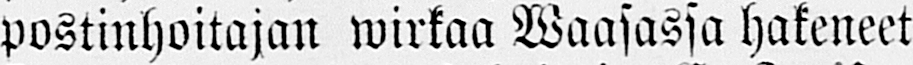postinhoitajan wirkaa Waasassa hakeneet
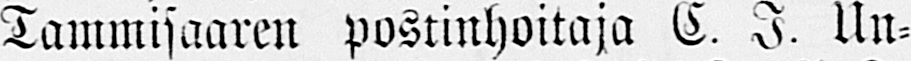Tammisaaren postinhoitaja C. J. Un-
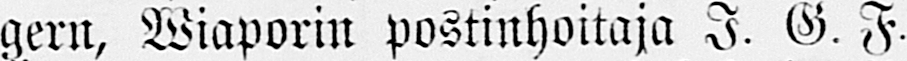gern, Wiaporin postinhoitaja I. G. F.
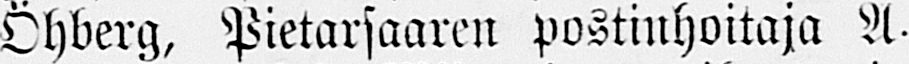Ohberg, Pietarsaaren postinhoitaja A.
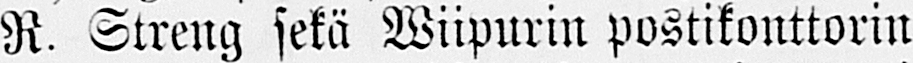R. Streng sekä Wiipurin postikonttorin
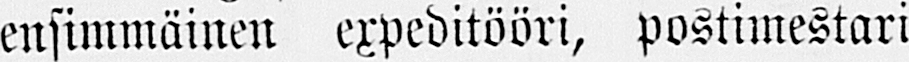ensimmäinen expeditööri, postimestari
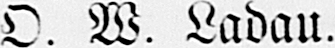O. W. Ladau.
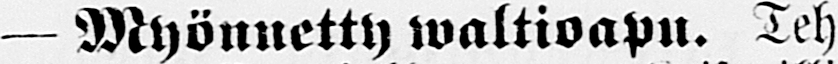— Myönnetty waltioapu. Teh-
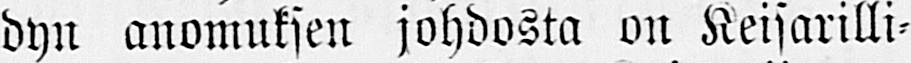dyn anomuksen johdosta on Keisarilli-
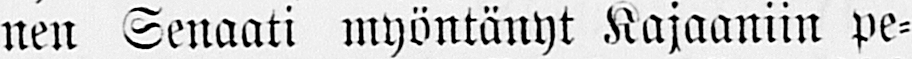nen Senaati myöntänyt Kajaaniin pe-
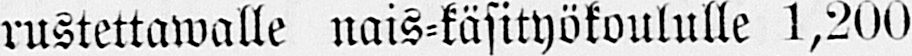rustettawalle nais-käsityökoululle 1,200
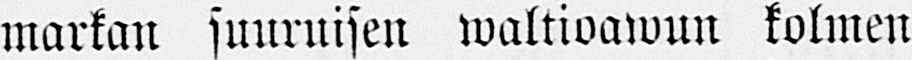markan suuruisen waltioawun kolmen
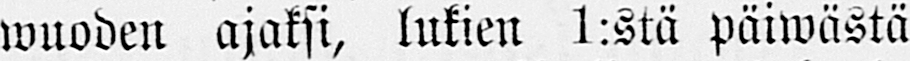wuoden ajaksi, lukien 1:stä päiwästä
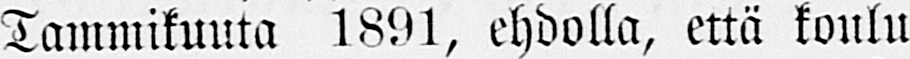Tammikuuta 1891, ehdolla, että koulu
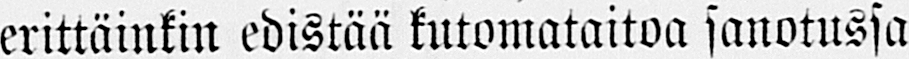erittäinkin edistää kutomataitoa sanotussa
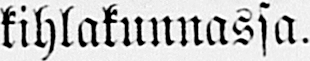kihlakunnassa.
